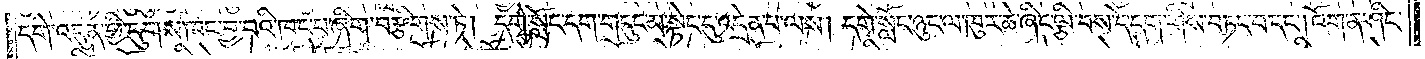དགེ་འདུན་གྱི་དུགས་ཁང་བྱ་བའི་ཁང་པ་ཞིག་བརྩིགས་ཏེ། དགེ་སློང་དག་གདུང་མ་སྟེང་དུ་འདྲེན་པ་ལས། དགེ་སློང་ཉུང་ལ་ཁུར་ཆེ་ཞིང་ལྕི་བས་དེ་དག་གིས་བཏང་བ་དང༌། འོག་ན་ཤིང་
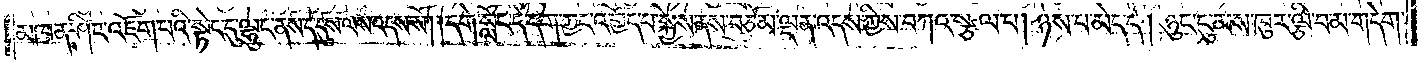མཁན་ཤིང་འཇོག་པའི་སྟེང་དུ་ལྷུང་ནས་དེ་དུས་ལས་འདས་སོ། །དགེ་སློང་དེ་དག་ཀྱང་འགྱོད་པ་སྐྱེས་ནས་བཅོམ་ལྡན་འདས་ཀྱིས་བཀའ་སྩལ་པ། ཉེས་པ་མེད་དེ། ཉུང་ངུ་མས་ཁུར་ལྕི་བ་མ་གདེག་
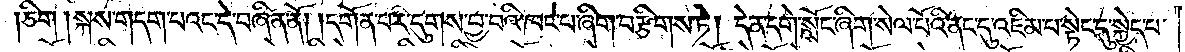ཅིག །སྐས་གདག་པའང་དེ་བཞིན་ནོ། །དགོན་པར་དུགས་བྱ་བའི་ཁང་པ་ཞིག་བརྩིགས་ཏེ། དེ་ན་དགེ་སློང་ཞིག་སེལ་པོའི་ནང་དུ་འཇིམ་པ་སྟེང་དུ་སྐྱེད་པ་
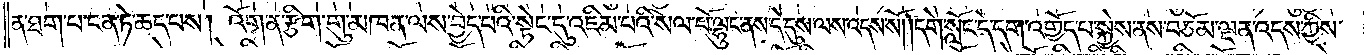ན་ཐག་པ་ངན་ཏེ་ཆད་པས། འོག་ན་རྩིག་གུ་མཁན་ལས་བྱེད་པའི་སྟེང་དུ་འཇིམ་པའི་སེལ་པོ་ལྷུང་ནས་དེ་དུས་ལས་འདས་སོ། །དགེ་སློང་དེ་དག་འགྱོད་པ་སྐྱེས་ནས་བཅོམ་ལྡན་འདས་ཀྱིས་
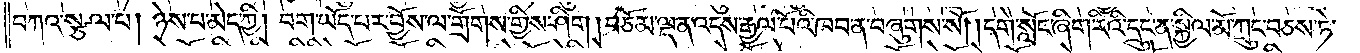བཀའ་སྩལ་པ། ཉེས་པ་མེད་ཀྱི། བག་ཡོད་པར་བྱོས་ལ་གྲོགས་གྱིས་ཤིག །བཅོམ་ལྡན་འདས་རྒྱལ་པོའི་ཁབ་ན་བཞུགས་སོ། །དགེ་སློང་ཞིག་རིའི་དྲུང་ན་སྐྱིལ་མོ་ཀྲུང་བཅས་ཏེ་
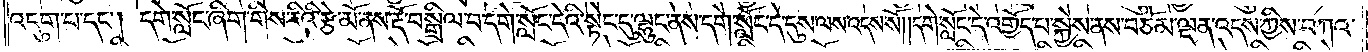འདུག་པ་དང༌། དགེ་སློང་ཞིག་གིས་རིའི་རྩེ་མོ་ནས་རྡོ་བསྒྲིལ་བ་དགེ་སློང་དེའི་སྟེང་དུ་ལྷུང་ནས་དགེ་སློང་དེ་དུས་ལས་འདས་སོ། །དགེ་སློང་དེ་འགྱོད་པ་སྐྱེས་ནས་བཅོམ་ལྡན་འདས་ཀྱིས་བཀའ་
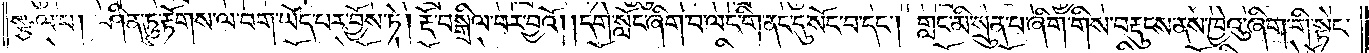སྩལ་པ། ཤིན་ཏུ་རྟོགས་ལ་བག་ཡོད་པར་བྱོས་ཏེ། རྡོ་བསྒྲིལ་བར་བྱའོ། །དགེ་སློང་ཞིག་བ་ལང་གི་ནང་དུ་སོང་བ་དང༌། གླང་མི་སྲུན་པ་ཞིག་གིས་བརྡུངས་ནས་ཁྱེའུ་ཞིག་གི་སྟེང་
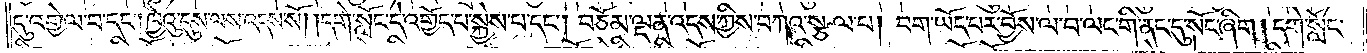དུ་འགྱེལ་བ་དང༌། ཁྱེའུ་དུས་ལས་འདས་སོ། །དགེ་སློང་དེ་འགྱོད་པ་སྐྱེས་པ་དང༌། བཅོམ་ལྡན་འདས་ཀྱིས་བཀའ་སྩལ་པ། བག་ཡོད་པར་བྱོས་ལ་བ་ལང་གི་ནང་དུ་སོང་ཞིག །དགེ་སློང་
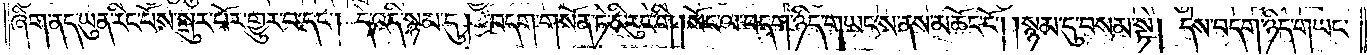ཞིག་ནད་ཡུན་རིང་པོས་སྒུར་པོར་གྱུར་པ་དང༌། དེ་འདི་སྙམ་དུ། བདག་གསོན་ཏེ་ཅི་རུང་གི །སོང་ལ་བདག་ཉིད་གཡང་ས་ནས་མཆོང་ངོ༌། །སྙམ་དུ་བསམ་སྟེ། དེས་བདག་ཉིད་གཡང་
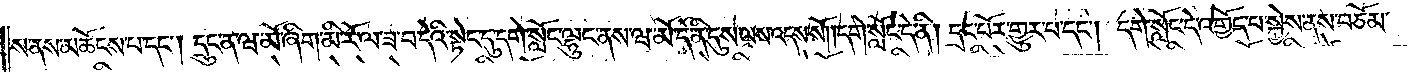ས་ནས་མཆོངས་པ་དང༌། དྲུང་ན་ཝ་མོ་ཞིག་མི་རོ་ལ་ཟ་བ་དེའི་སྟེང་དུ་དགེ་སློང་ལྷུང་ནས་ཝ་མོ་དེ་ནི་དུས་ལས་འདས་སོ། །དགེ་སློང་དེ་ནི། དྲང་པོར་གྱུར་པ་དང༌། དགེ་སློང་དེ་འགྱོད་པ་སྐྱེས་ནས་བཅོམ་
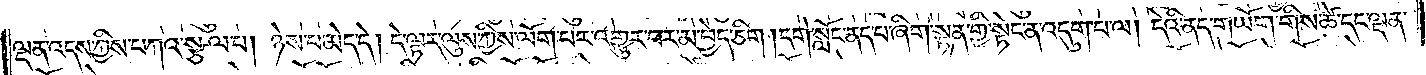ལྡན་འདས་ཀྱིས་བཀའ་སྩལ་པ། ཉེས་པ་མེད་དེ། དེ་ལྟར་ལུས་ཀྱིས་ལོག་པར་འགྱུར་བར་མ་བྱེད་ཅིག །དགེ་སློང་ནད་པ་ཞིག་སྟན་གྱི་སྟེང་ན་འདུག་པ་ལ། དེའི་ནད་གཡོག་གིས་ཚེ་དང་ལྡན་
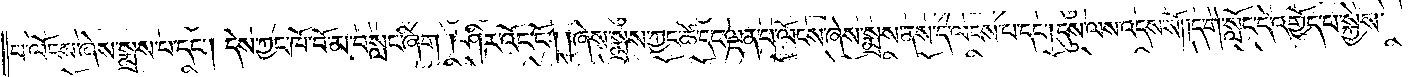པ་ལོངས་ཞེས་སྨྲས་པ་དང༌། དེས་ཀྱང་ཁོ་བོ་མ་བསླང་ཞིག །ཤིར་འོང་ངོ༌། །ཞེས་སྨྲས་ཀྱང་ཚེ་དང་ལྡན་པ་ལོངས་ཞེས་སྨྲས་ནས་དེ་ལངས་པ་དང༌། དུས་ལ་འདས་སོ། །དགེ་སློང་དེ་འགྱོད་པ་སྐྱེས་
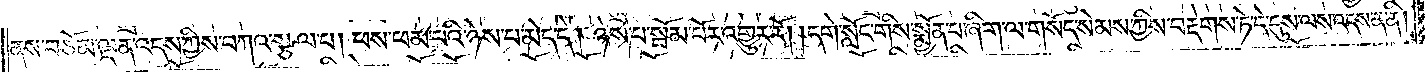ནས་བཅོམ་ལྡན་འདས་ཀྱིས་བཀའ་སྩལ་པ། ཕས་ཕམ་པའི་ཉེས་པ་མེད་དེ། ཉེས་པ་སྦོམ་པོར་འགྱུར་རོ། །དགེ་སློང་གིས་སྨྱོན་པ་ཞིག་ལ་གསོད་སེམས་ཀྱིས་བརྡེགས་ཏེ་དེ་དུས་ལས་འདས་ན་ནི།
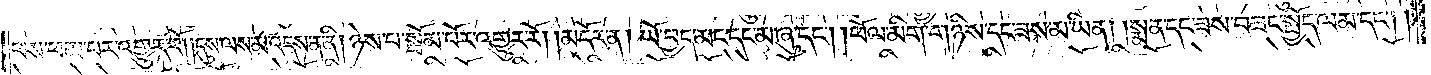ཕས་ཕམ་པར་འགྱུར་རོ། །དུས་ལས་མ་འདས་ན་ནི། ཉེས་པ་སྦོམ་པོར་འགྱུར་རོ། །མདོར་ན། ཡོ་བྱད་མང་དང་མ་ཞུ་དང༌། །ཕོལ་མིག་གཉིས་དང་ཟས་མ་ཡིན། །སྨན་དང་ཟས་བཟང་སྤྱོད་ལམ་དང༌། །
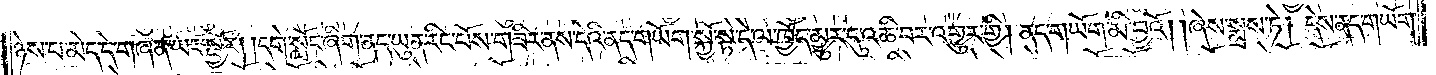ཉེས་པ་མེད་དེ་གཞན་ཡང་སྦྱོར། །དགེ་སློང་ཞིག་ནད་ཡུན་རིང་པོས་གཟིར་ནས་དེའི་ནད་གཡོག་སྐྱོ་སྟེ་དེ་ལ་ཁྱོད་མྱུར་དུ་འཆི་བར་འགྱུར་གྱི། ནད་གཡོག་མི་བྱའོ། །ཞེས་སྨྲས་ཏེ། དེས་ནད་གཡོག་
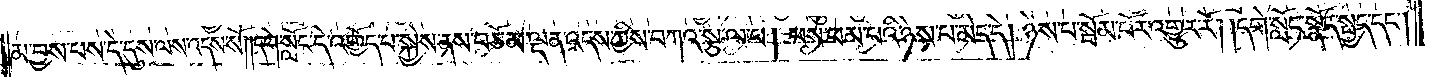མ་བྱས་པས་དེ་དུས་ལས་འདས་སོ། །དགེ་སློང་དེ་འགྱོད་པ་སྐྱེས་ནས་བཅོམ་ལྡན་འདས་ཀྱིས་བཀའ་སྩལ་པ། ཕས་ཕམ་པའི་ཉེས་པ་མེད་དེ། ཉེས་པ་སྦོམ་པོར་འགྱུར་རོ། །དགེ་སློང་སྣོད་སྤྱད་དང༌།
